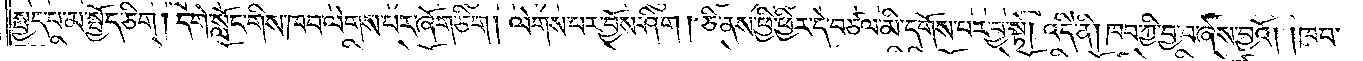སྤྱད་པ་མ་སྤྱོད་ཅིག །དགེ་སློང་གིས་ཁབ་ལེགས་པར་ཞོག་ཅིག །ལེགས་པར་བྱོས་ཤིག། ཅི་ནས་ཕྱི་ཕྱིར་དེ་བཙལ་མི་དགོས་པར་བྱ་སྟེ། འདི་ནི། ཁབ་ཀྱི་བྱ་བ་ཞེས་བྱའོ། །ཁབ་
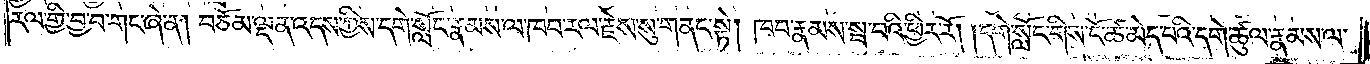རལ་གྱི་བྱ་བ་གང་ཞེ་ན། བཅོམ་ལྡན་འདས་ཀྱིས་དགེ་སློང་རྣམས་ལ་ཁབ་རལ་རྗེས་སུ་གནང་སྟེ། ཁབ་རྣམས་སྦ་བའི་ཕྱིར་རོ། །དགེ་སློང་གིས་ངོ་ཚ་མེད་པའི་དགེ་ཚུལ་རྣམས་ལ་
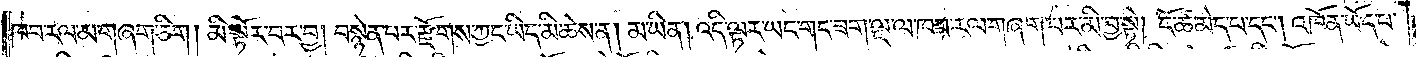ཁབ་རལ་མ་གཞག་ཅིག། མི་སྟོར་བར་བྱ། བསྙེན་པར་རྫོགས་ཀྱང་ཡིད་མི་ཆེས་ན། མ་ཡིན། འདི་ལྟར་ཡང་གང་ཟག་ལྔ་ལ་ཁབ་རལ་གཞག་པར་མི་བྱ་སྟེ། ངོ་ཚ་མེད་པ་དང༌། འཁོན་ཡོད་པ་
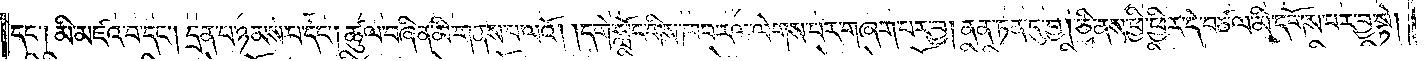དང༌། མི་མཛའ་བ་དང༌། དྲན་པ་ཉམས་པ་དང༌། ཚུལ་བཞིན་མི་གནས་པ་ལའོ། །དགེ་སློང་གིས་ཁབ་རལ་ལེགས་པར་གཞག་པར་བྱ། ནན་ཏན་དུ་བྱ། ཅི་ནས་ཕྱི་ཕྱིར་དེ་བཙལ་མི་དགོས་པར་བྱ་སྟེ།
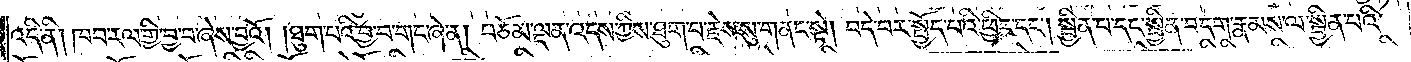འདི་ནི། ཁབ་རལ་གྱི་བྱ་བ་ཞེས་བྱའོ། །ཐུག་པའི་བྱ་བ་གང་ཞེ་ན། བཅོམ་ལྡན་འདས་ཀྱིས་ཐུག་པ་རྗེས་སུ་གནང་སྟེ། བདེ་བར་སྤྱོད་པའི་ཕྱིར་དང༌། སྦྱིན་པ་དང་སྦྱིན་བདག་རྣམས་ལ་སྦྱིན་པའི་
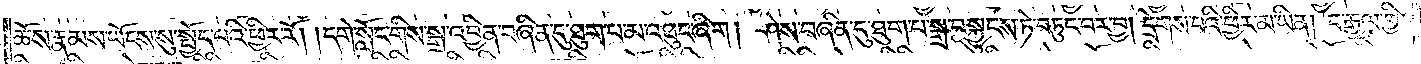ཆོས་རྣམས་ཡོངས་སུ་སྤྱོད་པའི་ཕྱིར་རོ། །དགེ་སློང་གིས་སྒྲ་འབྱིན་བཞིན་དུ་ཐུག་པ་མ་འཐུང་ཞིག། ཤེས་བཞིན་དུ་ཐུག་པ་སྒྲ་བསྐྱུངས་ཏེ་བཏུང་བར་བྱ། དྲེགས་པའི་ཕྱིར་མ་ཡིན། ང་རྒྱལ་གྱི་
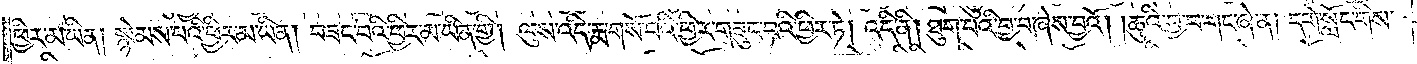ཕྱིར་མ་ཡིན། སྙེམས་པའི་ཕྱིར་མ་ཡིན། བཟང་བའི་ཕྱིར་མ་ཡིན་གྱི། ལུས་འདི་རྨ་གསོ་བའི་ཕྱིར་གཟུང་བའི་ཕྱིར་ཏེ། འདི་ནི། ཐུག་པའི་བྱ་བ་ཞེས་བྱའོ། །ཆུའི་བྱ་བ་གང་ཞེ་ན། དགེ་སློང་གིས་
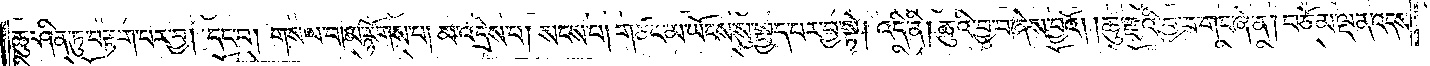ཆུ་ཤིན་ཏུ་བརྟག་པར་བྱ། དང་བ། གསལ་བ། མ་རྙོགས་པ། མ་འདྲེས་པ། སངས་པ། གཙང་མ་ཡོངས་སུ་སྤྱད་པར་བྱ་སྟེ། འདི་ནི། ཆུའི་བྱ་བ་ཞེས་བྱའོ། །ཆུ་རྫའི་བྱ་བ་གང་ཞེ་ན། བཅོམ་ལྡན་འདས་
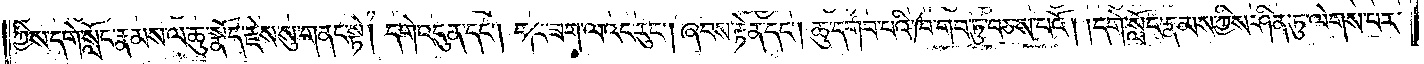ཀྱིས་དགེ་སློང་རྣམས་ལ་ཆུ་སྣོད་རྗེས་སུ་གནང་སྟེ། དགེ་འདུན་དང༌། གང་ཟག་ལའང་རུང༌། ཞབས་རྟེན་དང༌། ཆུ་དགབ་པའི་ཁ་གབ་ཏུ་བཅས་པའོ། །དགེ་སློང་རྣམས་ཀྱིས་ཤིན་ཏུ་ལེགས་པར་
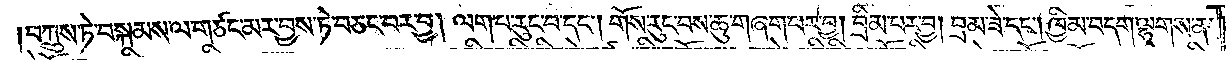བཀྲུས་ཏེ་བསྐམས་ལ་གཙང་མར་བྱས་ཏེ་བཅང་བར་བྱ། ལག་པ་རུང་བ་དང༌། གོས་རུང་བས་ཆུ་གཞག་པར་བྱ། བྲིམ་པར་བྱ། བྲམ་ཟེ་དང༌། ཁྱིམ་བདག་ལྷགས་ན་
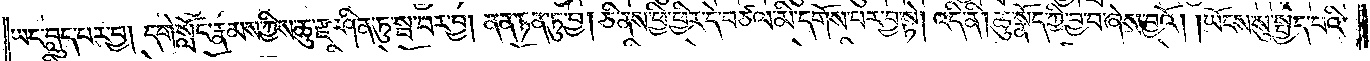ཡང་བླུད་པར་བྱ། དགེ་སློང་རྣམས་ཀྱིས་ཆུ་རྫ་ཤིན་ཏུ་སྦ་བར་བྱ། ནན་ཏན་ཏུ་བྱ། ཅི་ནས་ཕྱི་ཕྱིར་དེ་བཙལ་མི་དགོས་པར་བྱ་སྟེ། འདི་ནི། ཆུ་སྣོད་ཀྱི་བྱ་བ་ཞེས་བྱའོ། །ཡོངས་སུ་སྤྱད་པའི་
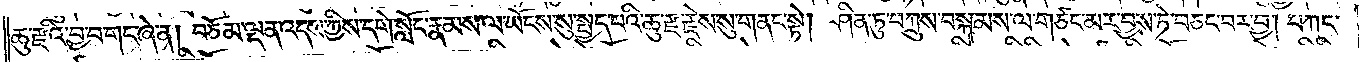ཆུ་རྫའི་བྱ་བ་གང་ཞེ་ན། བཅོམ་ལྡན་འདས་ཀྱིས་དགེ་སློང་རྣམས་ལ་ཡོངས་སུ་སྤྱད་པའི་ཆུ་རྫ་རྗེས་སུ་གནང་སྟེ། ཤིན་ཏུ་བཀྲུས་བསྐམས་ལ་གཙང་མར་བྱས་ཏེ་བཅང་བར་བྱ། བཀང་
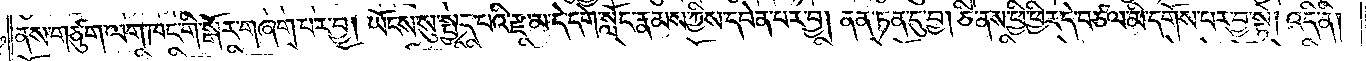ནས་གཙུག་ལག་ཁང་གི་སྒོར་གཞག་པར་བྱ། ཡོངས་སུ་སྤྱད་པའི་རྫ་མ་དེ་དགེ་སློང་རྣམས་ཀྱིས་དབེན་པར་བྱ། ནན་ཏན་དུ་བྱ། ཅི་ནས་ཕྱི་ཕྱིར་དེ་བཙལ་མི་དགོས་པར་བྱ་སྟེ། འདི་ནི།
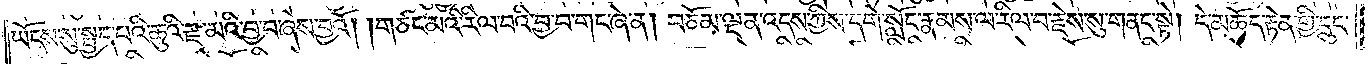ཡོངས་སུ་སྤྱད་པའི་ཆུའི་རྫ་མའི་བྱ་བ་ཞེས་བྱའོ། །གཙང་མའི་རིལ་བའི་བྱ་བ་གང་ཞེ་ན། བཅོམ་ལྡན་འདས་ཀྱིས་དགེ་སློང་རྣམས་ལ་རིལ་བ་རྗེས་སུ་གནང་སྟེ། དེ་མཆོད་རྟེན་གྱི་དྲུང་
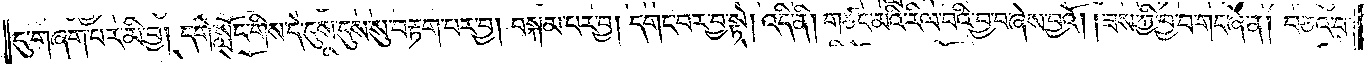དུ་གཞག་པར་མི་བྱ། དགེ་སློང་གིས་དེ་དུས་དུས་སུ་བརྟག་པར་བྱ། བསྐམ་པར་བྱ། དགང་བར་བྱ་སྟེ། འདི་ནི། གཙང་མའི་རིལ་བའི་བྱ་བ་ཞེས་བྱའོ། །ཟས་ཀྱི་བྱ་བ་གང་ཞེ་ན། བཅའ་བ་
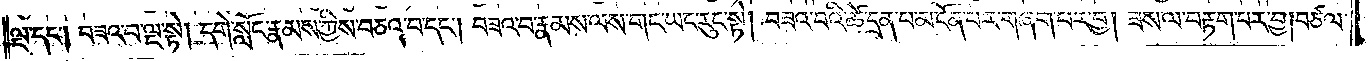ལྔ་དང༌། བཟའ་བ་ལྔ་སྟེ། དགེ་སློང་རྣམས་ཀྱིས་བཅའ་བ་དང༌། བཟའ་བ་རྣམས་ལས་གང་ཡང་རུང་སྟེ། བཟའ་བའི་ཚེ་དྲན་ལྡན་པ་མངོན་པར་གཞག་པར་བྱ། ཟས་ལ་བརྟག་པར་བྱ། བཙལ་
